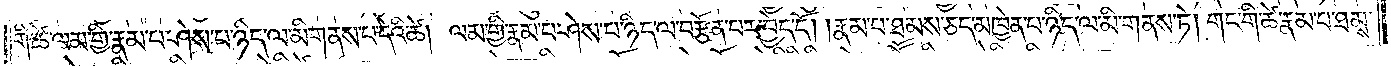གི་ཚེ་ལམ་གྱི་རྣམ་པ་ཤེས་པ་ཉིད་ལ་མི་གནས་པ་དེའི་ཚེ། ལམ་གྱི་རྣམ་པ་ཤེས་པ་ཉིད་ལ་བརྩོན་པར་བྱེད་དོ། །རྣམ་པ་ཐམས་ཅད་མཁྱེན་པ་ཉིད་ལ་མི་གནས་ཏེ། གང་གི་ཚེ་རྣམ་པ་ཐམས་
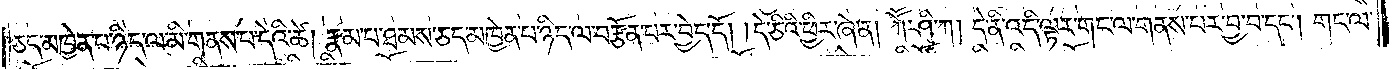ཅད་མཁྱེན་པ་ཉིད་ལ་མི་གནས་པ་དེའི་ཚེ། རྣམ་པ་ཐམས་ཅད་མཁྱེན་པ་ཉིད་ལ་བརྩོན་པར་བྱེད་དོ། །དེ་ཅིའི་ཕྱིར་ཞེ་ན། ཀཽ་ཤི་ཀ། དེ་ནི་འདི་ལྟར་གང་ལ་གནས་པར་བྱ་བ་དང༌། གང་ལ་
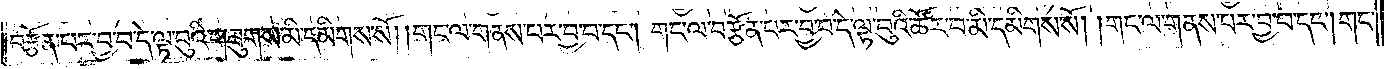བརྩོན་པར་བྱ་བ་དེ་ལྟ་བུའི་གཟུགས་མི་དམིགས་སོ། །གང་ལ་གནས་པར་བྱ་བ་དང༌། གང་ལ་བརྩོན་པར་བྱ་བ་དེ་ལྟ་བུའི་ཚོར་བ་མི་དམིགས་སོ། །གང་ལ་གནས་པར་བྱ་བ་དང༌། གང་
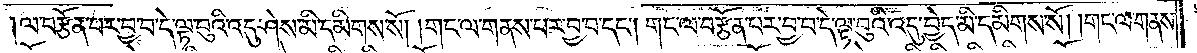ལ་བརྩོན་པར་བྱ་བ་དེ་ལྟ་བུའི་འདུ་ཤེས་མི་དམིགས་སོ། །གང་ལ་གནས་པར་བྱ་བ་དང༌། གང་ལ་བརྩོན་པར་བྱ་བ་དེ་ལྟ་བུའི་འདུ་བྱེད་མི་དམིགས་སོ། །གང་ལ་གནས་
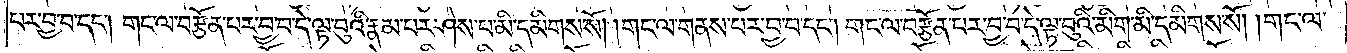པར་བྱ་བ་དང༌། གང་ལ་བརྩོན་པར་བྱ་བ་དེ་ལྟ་བུའི་རྣམ་པར་ཤེས་པ་མི་དམིགས་སོ། །གང་ལ་གནས་པར་བྱ་བ་དང༌། གང་ལ་བརྩོན་པར་བྱ་བ་དེ་ལྟ་བུའི་མིག་མི་དམིགས་སོ། །གང་ལ་
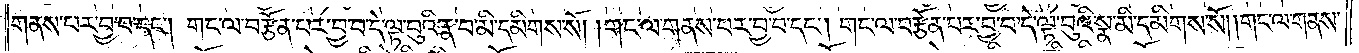གནས་པར་བྱ་བ་དང༌། གང་ལ་བརྩོན་པར་བྱ་བ་དེ་ལྟ་བུའི་རྣ་བ་མི་དམིགས་སོ། །གང་ལ་གནས་པར་བྱ་བ་དང༌། གང་ལ་བརྩོན་པར་བྱ་བ་དེ་ལྟ་བུའི་སྣ་མི་དམིགས་སོ། །གང་ལ་གནས་
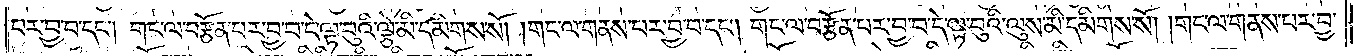པར་བྱ་བ་དང༌། གང་ལ་བརྩོན་པར་བྱ་བ་དེ་ལྟ་བུའི་ལྕེ་མི་དམིགས་སོ། །གང་ལ་གནས་པར་བྱ་བ་དང༌། གང་ལ་བརྩོན་པར་བྱ་བ་དེ་ལྟ་བུའི་ལུས་མི་དམིགས་སོ། །གང་ལ་གནས་པར་བྱ་
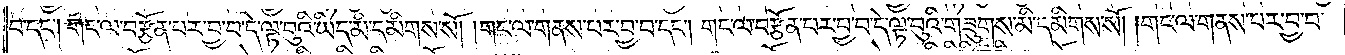བ་དང༌། གང་ལ་བརྩོན་པར་བྱ་བ་དེ་ལྟ་བུའི་ཡིད་མི་དམིགས་སོ། །གང་ལ་གནས་པར་བྱ་བ་དང༌། གང་ལ་བརྩོན་པར་བྱ་བ་དེ་ལྟ་བུའི་གཟུགས་མི་དམིགས་སོ། །གང་ལ་གནས་པར་བྱ་བ་
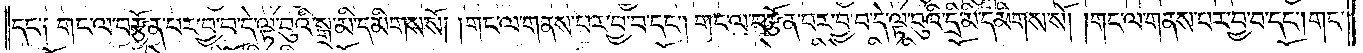དང་༑ གང་ལ་བརྩོན་པར་བྱ་བ་དེ་ལྟ་བུའི་སྒྲ་མི་དམིགས་སོ། །གང་ལ་གནས་པར་བྱ་བ་དང༌། གང་ལ་བརྩོན་པར་བྱ་བ་དེ་ལྟ་བུའི་དྲི་མི་དམིགས་སོ། །གང་ལ་གནས་པར་བྱ་བ་དང༌། གང་
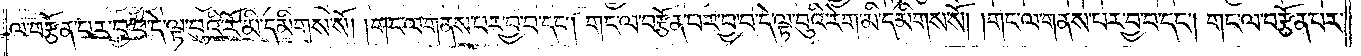ལ་བརྩོན་པར་བྱ་བ་དེ་ལྟ་བུའི་རོ་མི་དམིགས་སོ། །གང་ལ་གནས་པར་བྱ་བ་དང༌། གང་ལ་བརྩོན་པར་བྱ་བ་དེ་ལྟ་བུའི་རེག་མི་དམིགས་སོ། །གང་ལ་གནས་པར་བྱ་བ་དང༌། གང་ལ་བརྩོན་པར་
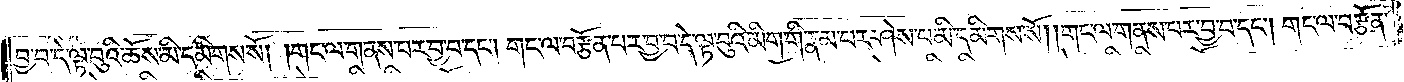བྱ་བ་དེ་ལྟ་བུའི་ཆོས་མི་དམིགས་སོ། །གང་ལ་གནས་པར་བྱ་བ་དང༌། གང་ལ་བརྩོན་པར་བྱ་བ་དེ་ལྟ་བུའི་མིག་གི་རྣམ་པར་ཤེས་པ་མི་དམིགས་སོ། །གང་ལ་གནས་པར་བྱ་བ་དང༌། གང་ལ་བརྩོན་
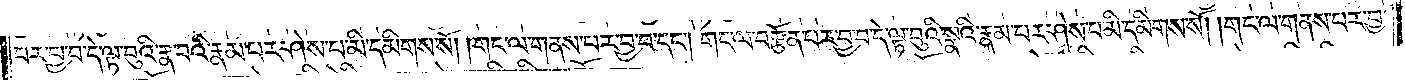པར་བྱ་བ་དེ་ལྟ་བུའི་རྣ་བའི་རྣམ་པར་ཤེས་པ་མི་དམིགས་སོ། །གང་ལ་གནས་པར་བྱ་བ་དང༌། གང་ལ་བརྩོན་པར་བྱ་བ་དེ་ལྟ་བུའི་སྣའི་རྣམ་པར་ཤེས་པ་མི་དམིགས་སོ། །གང་ལ་གནས་པར་བྱ་
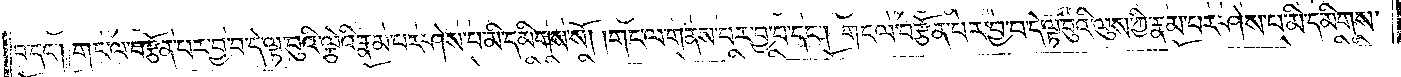བ་དང༌། གང་ལ་བརྩོན་པར་བྱ་བ་དེ་ལྟ་བུའི་ལྕེའི་རྣམ་པར་ཤེས་པ་མི་དམིགས་སོ། །གང་ལ་གནས་པར་བྱ་བ་དང༌། གང་ལ་བརྩོན་པར་བྱ་བ་དེ་ལྟ་བུའི་ལུས་ཀྱི་རྣམ་པར་ཤེས་པ་མི་དམིགས་
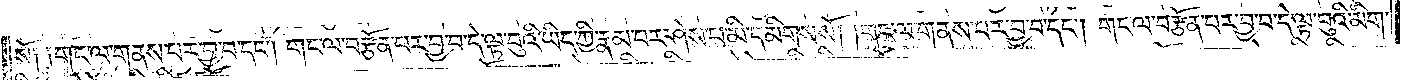སོ༑ ༑གང་ལ་གནས་པར་བྱ་བ་དང༌། གང་ལ་བརྩོན་པར་བྱ་བ་དེ་ལྟ་བུའི་ཡིད་ཀྱི་རྣམ་པར་ཤེས་པ་མི་དམིགས་སོ། །གང་ལ་གནས་པར་བྱ་བ་དང༌། གང་ལ་བརྩོན་པར་བྱ་བ་དེ་ལྟ་བུའི་མིག་
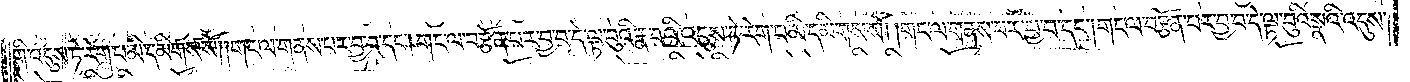གི་འདུས་ཏེ་རེག་པ་མི་དམིགས་སོ། །གང་ལ་གནས་པར་བྱ་བ་དང༌། གང་ལ་བརྩོན་པར་བྱ་བ་དེ་ལྟ་བུའི་རྣ་བའི་འདུས་ཏེ་རེག་པ་མི་དམིགས་སོ། །གང་ལ་གནས་པར་བྱ་བ་དང༌། གང་ལ་བརྩོན་པར་བྱ་བ་དེ་ལྟ་བུའི་སྣའི་འདུས་
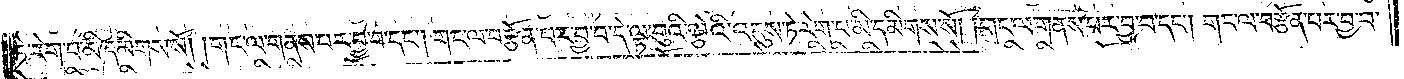ཏེ་རེག་པ་མི་དམིགས་སོ། །གང་ལ་གནས་པར་བྱ་བ་དང༌། གང་ལ་བརྩོན་པར་བྱ་བ་དེ་ལྟ་བུའི་ལྕེའི་འདུས་ཏེ་རེག་པ་མི་དམིགས་སོ། །གང་ལ་གནས་པར་བྱ་བ་དང༌། གང་ལ་བརྩོན་པར་བྱ་བ་
